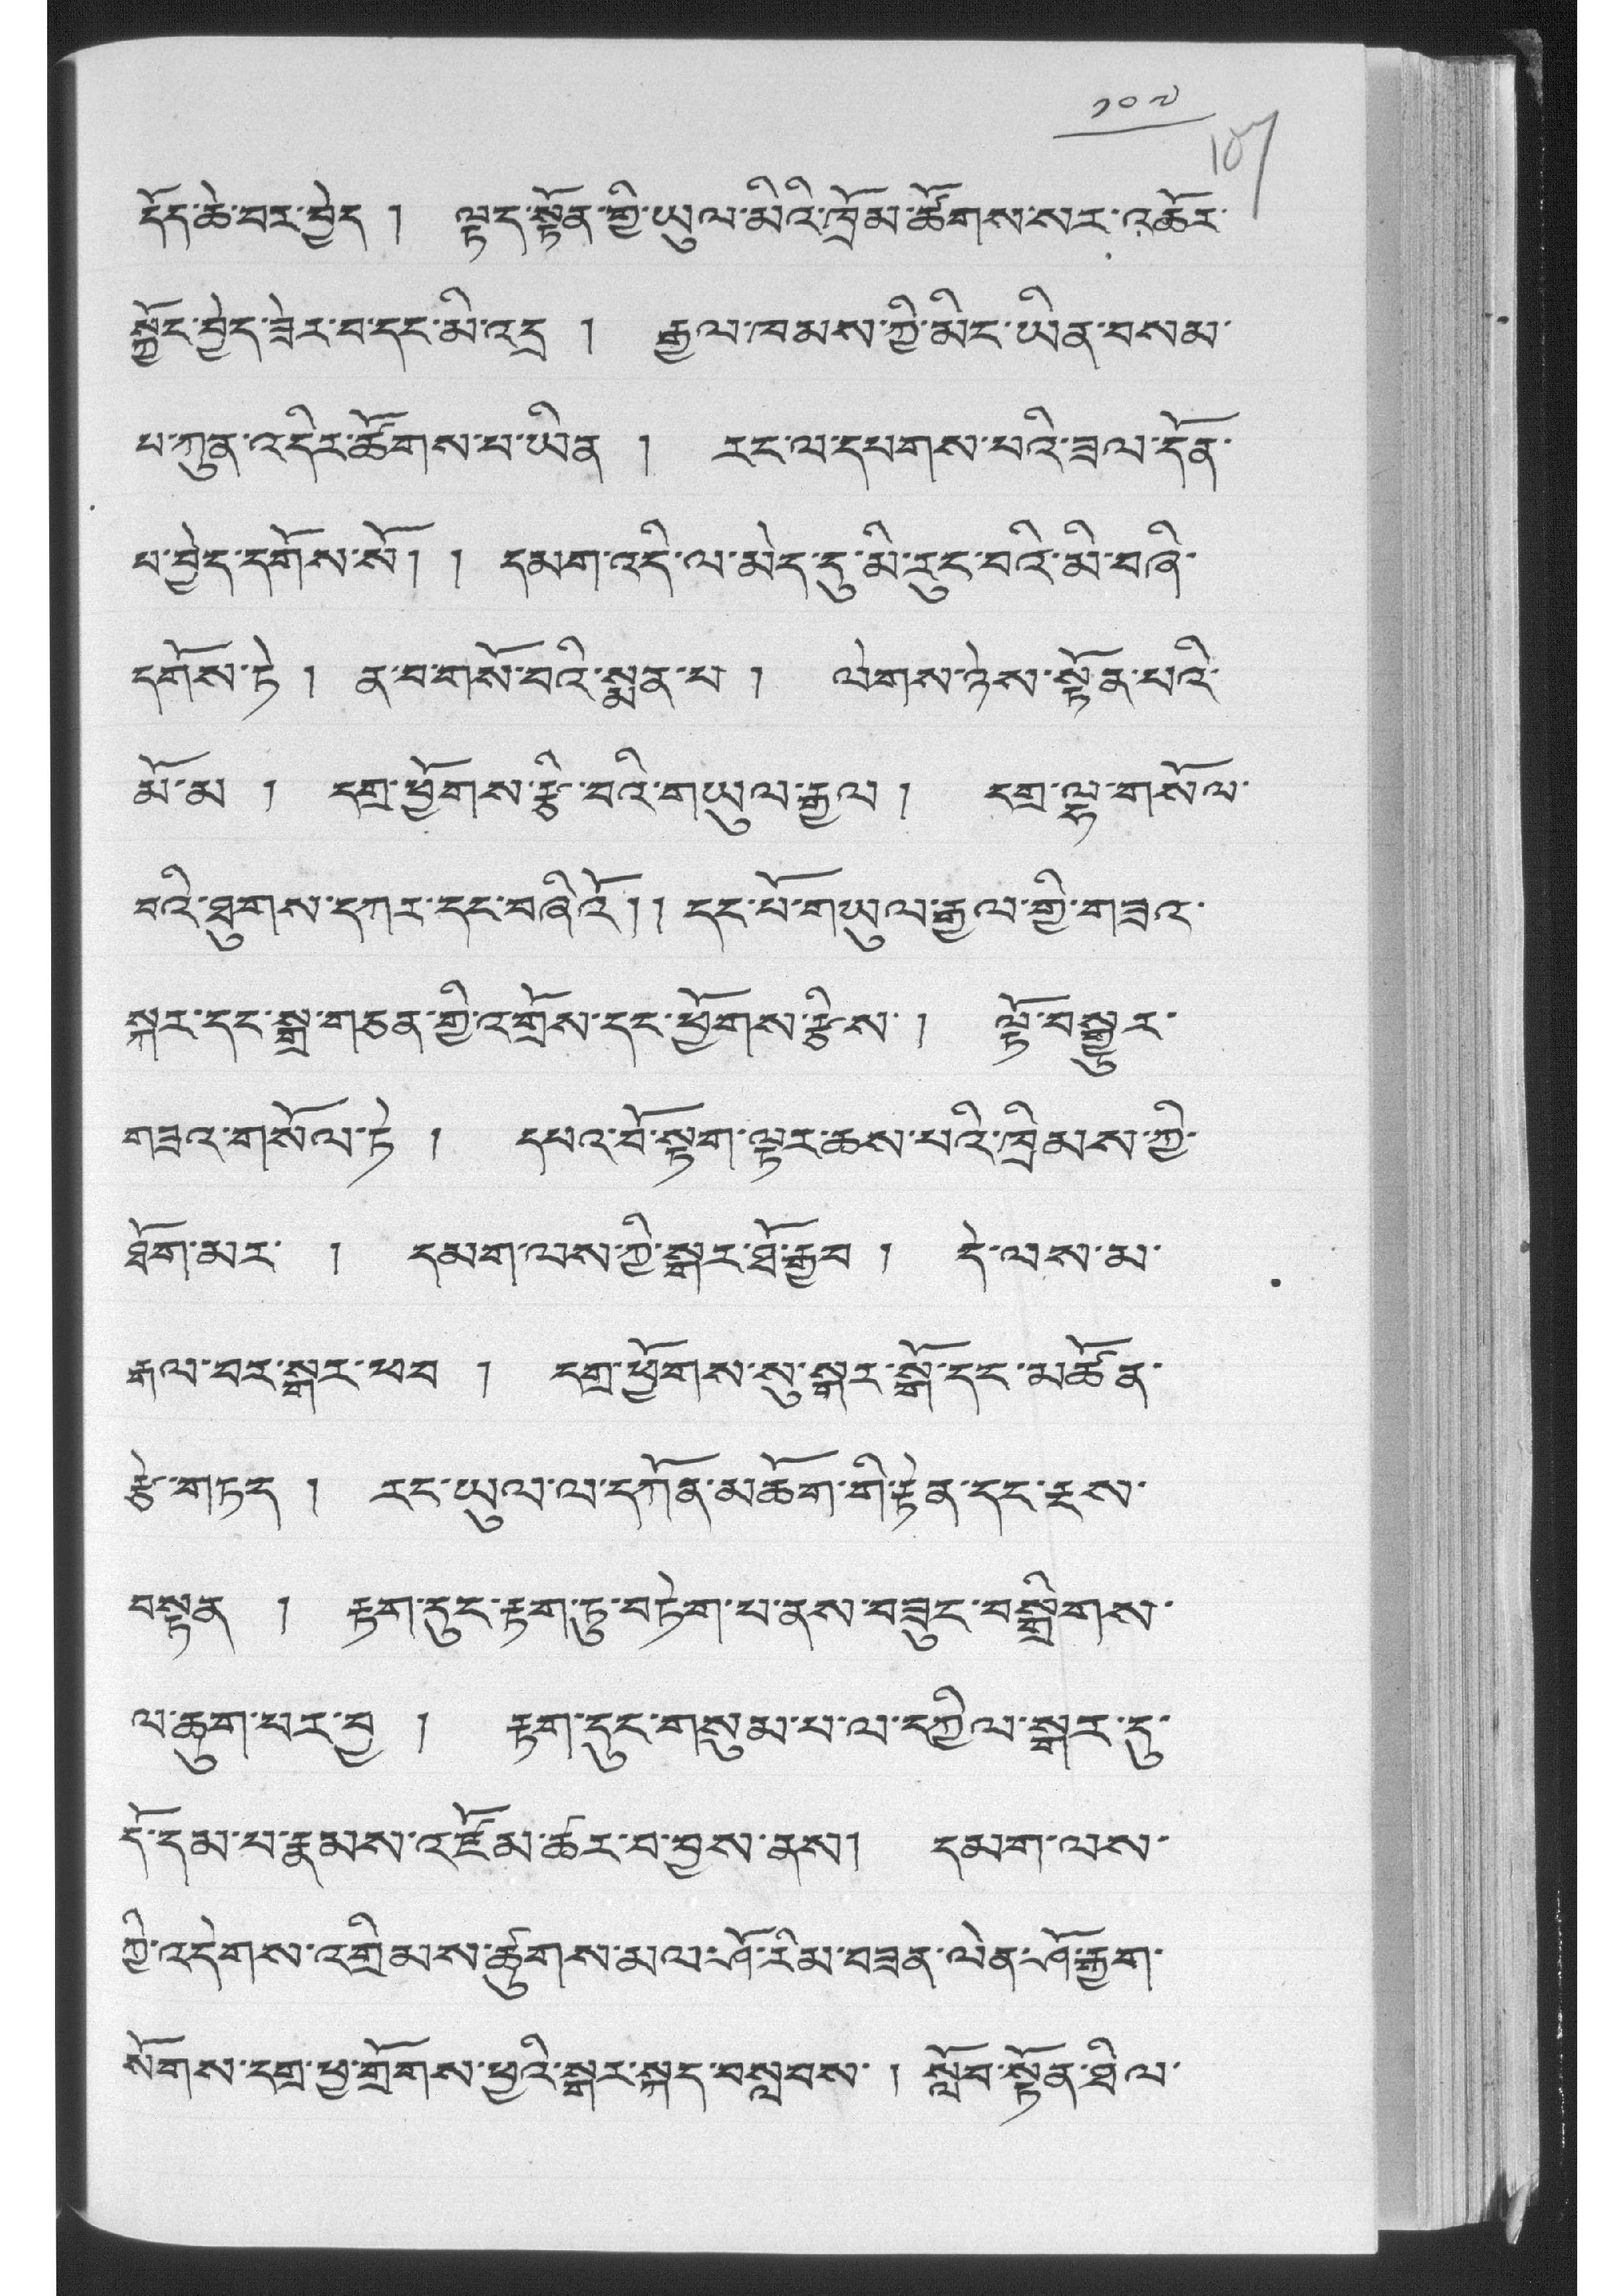༡༠༧
དོད་ཆེ་བར་བྱེད ། ལྟད་སྟོན་གྱི་ཡུལ་མིའི་ཁྲོམ་ཚོགས་སར་འཆོར་
སྐྱོང་བྱེད་ཟེར་བ་དང་མི་འདྲ ། རྒྱལ་ཁམས་ཀྱི་མིང་ཡིན་བསམ་
པ་ཀུན་འདིར་ཚོགས་པ་ཡིན ། རང་ལ་དཔགས་པའི་ཟལ་དོན་
པ་བྱེད་དགོས་སོ། ། དམག་འདི་ལ་མེད་དུ་མ་རུང་བའི་མི་བཞི་
དགོས་ཏེ ། ན་བ་གསོ་པའི་སྨན་པ ། ལེགས་ཉེས་སྟོན་པའི་
མོ་མ ། དགྲ་ཕྱོགས་རྩི་བའི་གཡུལ་རྒྱལ ། དགྲ་ལྷ་གསོལ་
བའི་ཐུགས་དཀར་དང་བཞིའོ།། དང་པོ་གཡུལ་རྒྱལ་གྱི་གཟའ་
སྐར་དང་སྒྲ་གཅན་གྱི་འགྲོས་དང་ཕྱོགས་རྩིས་ ། ལྟོ་བསྒྱུར་
གཟའ་གསོལ་ཏེ ། དཔའ་བོ་སྟག་ལྟར་ཆས་པའི་ཁྲིམས་ཀྱི་
ཐོག་མར་ ། དམག་ལས་ཀྱི་སྒར་ཐོ་རྒྱབ ། དེ་ལས་མ་
རྒལ་བར་སྒར་ཕབ ། དགྲ་ཕྱོགས་སུ་སྒར་སྒོ་དང་མཚོན་
རྩེ་གཏད ། རང་ཡུལ་ལ་དཀོན་མཆོག་གི་རྟེན་དང་རྔས་
བསྟན ། རྟག་དུང་རྟག་ཏུ་བཏེག་པ་ནས་བཟུང་བསྒྲིགས་
ལ་ཆུག་བར་བྱ ། རྟག་དུང་གསུམ་པ་ལ་དཀྱིལ་སྒར་དུ་
དོ་དམ་པ་རྣམས་འཛོམ་ཚར་བ་བྱས་ནས། དམག་ལས་
ཀྱི་འདེགས་འགྲིམས་ཚུགས་མལ་ཤོ་རིམ་བཟན་ལེན་ཤོ་རྒྱག་
སོགས་དགྲ་ཕྱ་གྲོགས་ཕྱའི་སྒར་སྐད་བསླབས་ ། སློབ་སྟོན་ཐིལ་
